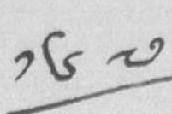༡༦༧
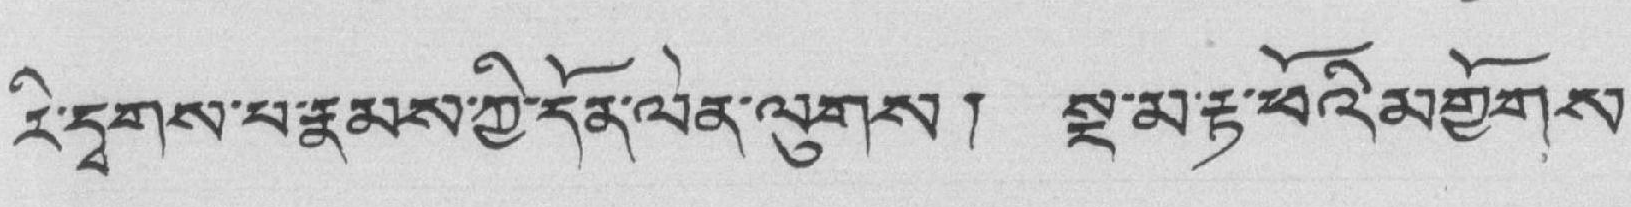རི་དྭགས་པ་རྣམས་ཀྱི་དོན་ལེན་ལུགས། སྔ་མ་རྟ་ཕོའི་མགྱོགས་
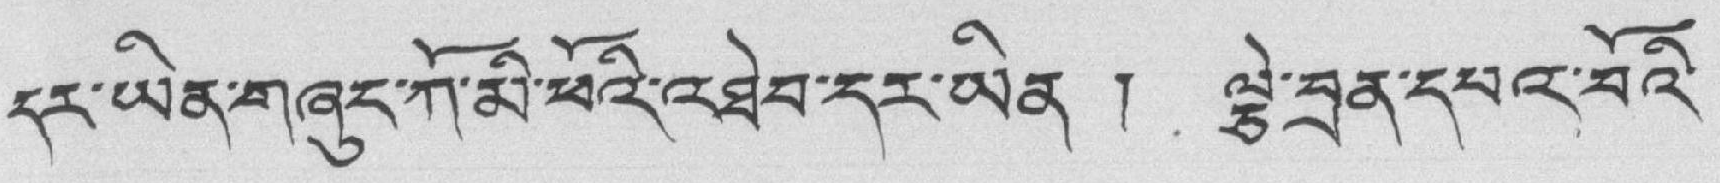དར་ཡིན་གཞུང་ཀོ་མི་ཕོའི་འཐེབ་དར་ཡིན ། ལྕེ་བྲན་དཔའ་བོའི་
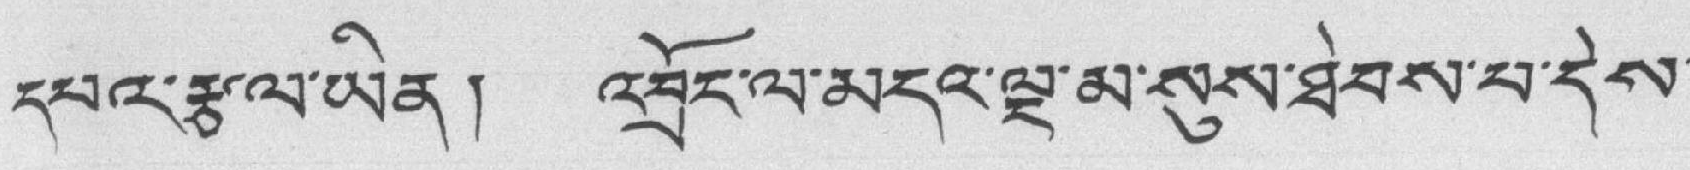དཔའ་རྩལ་ཡིན། འབྲོང་ལ་མདའ་ལྔ་མ་སུས་ཐེབས་པ་དེས་
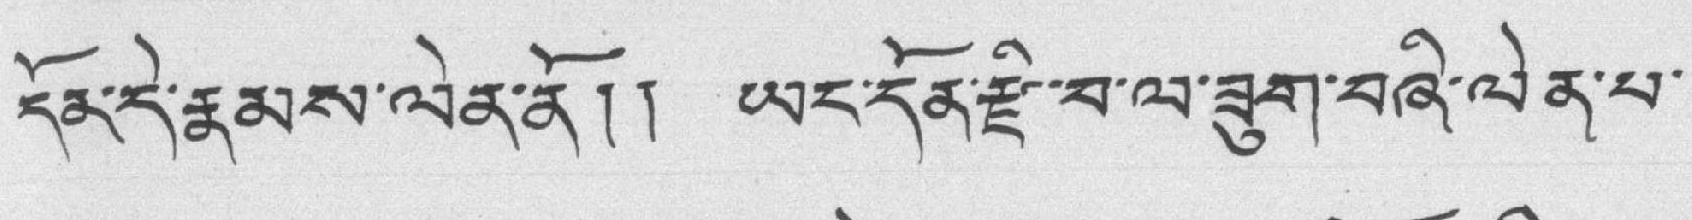དོན་དེ་རྣམས་ལེན་ནོ།། ཡང་དོན་རྫི་བ་ལ་ཟུག་བཞི་ལེན་པ་
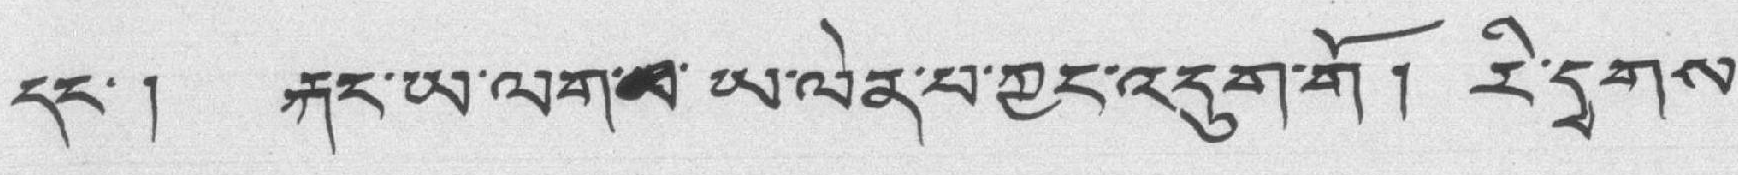དང་། རྐང་ཡ་ལག་མ་ཡ་ལེན་པ་ཀྱང་འདུག་གོ ། རི་དྭགས་
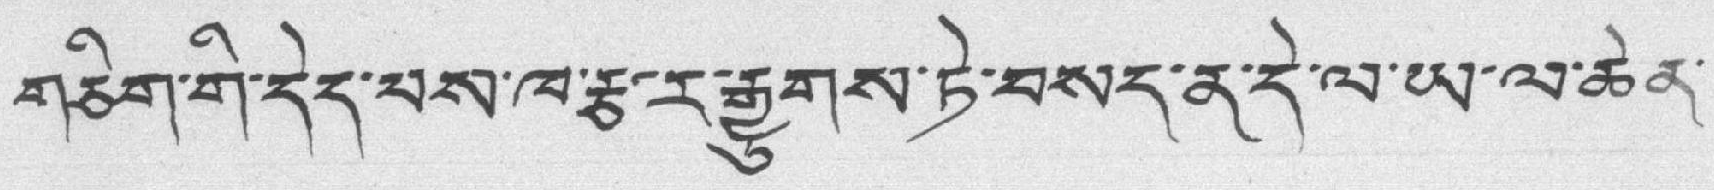གཅིག་གི་དེད་པས་ཁ་རྩར་རྒྱུགས་ཏེ་བསད་ན་དེ་ལ་ཡ་ལ་ཆེན་
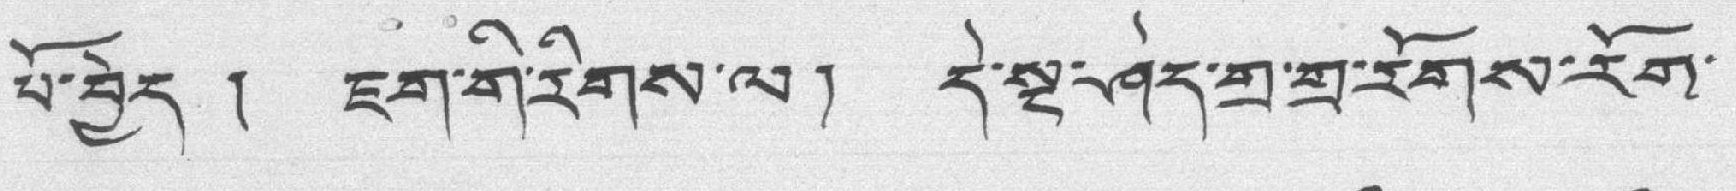པོ་བྱེད ། ཇག་གི་རིགས་ལ། དེ་སྔ་ཤེད་གྲ་གྲ་རོགས་རོག་
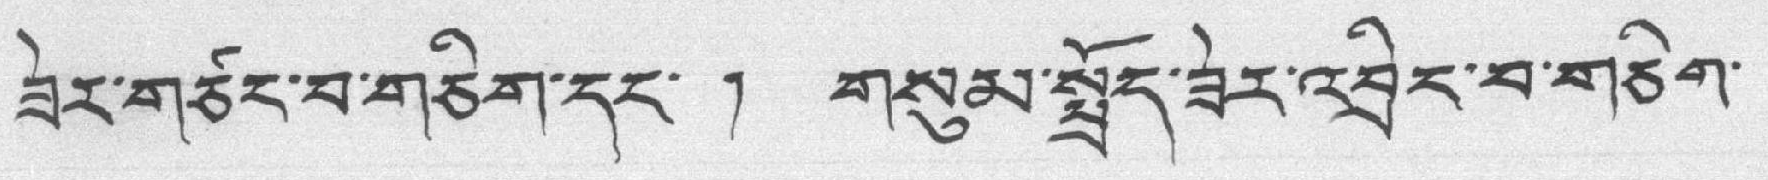ཟེར་གཙང་བ་གཅིག་དང་ ། གསུམ་སྤྲོད་ཟེར་འབྲིང་བ་གཅིག་
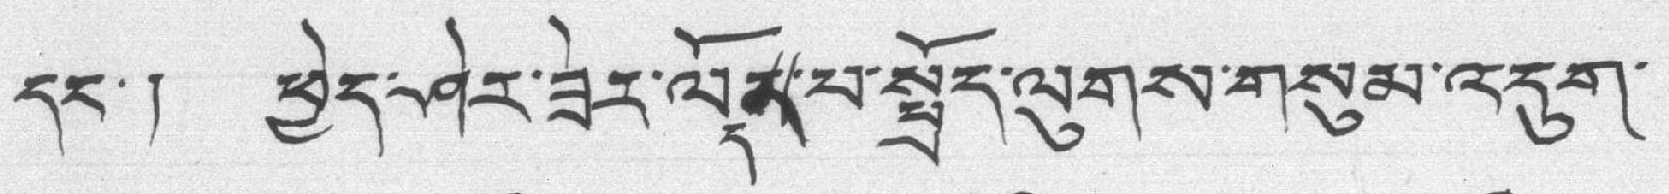དང་། ཕྱེད་ཤེར་ཟེར་ལོདན་པ་སྤྲོད་ལུགས་གསུམ་འདུག
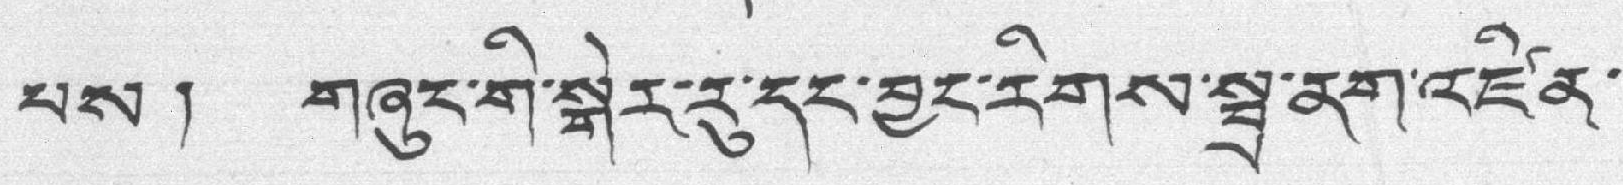པས ། གཞུང་གི་སྒེར་རུ་དང་བྱང་རིགས་སྦྲ་ནག་འཛིན་
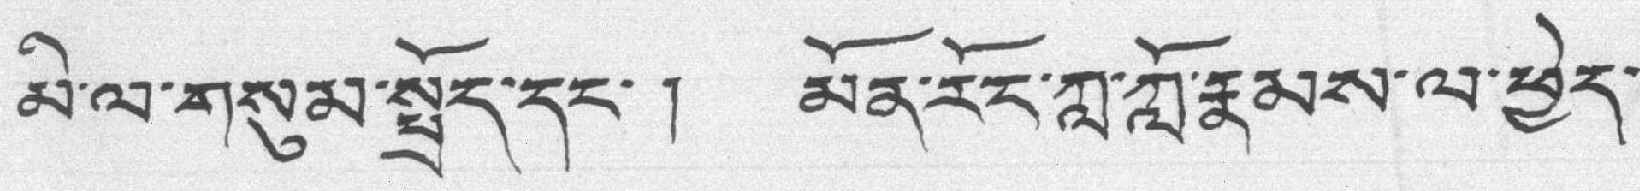མི་ལ་གསུམ་སྤྲོད་དང་། མིན་རོང་ཀླ་ཀློ་རྣམས་ལ་ཕྱེད་
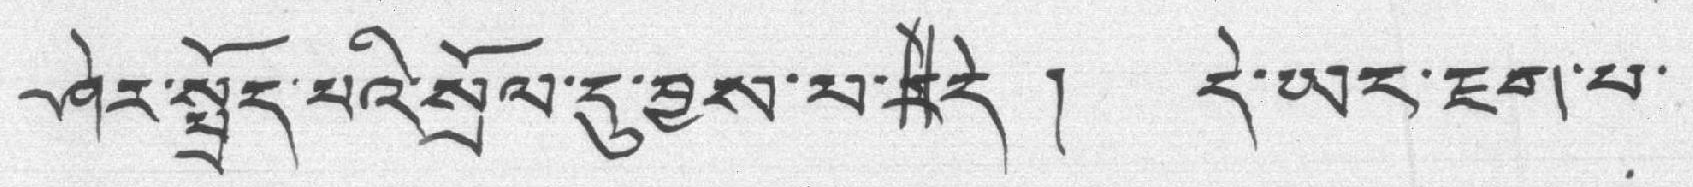ཤེར་སྤྲོད་པའི་སྲོལ་དུ་བྱས་པ་རེདེ ། དེ་ཡང་ཇག་པ་
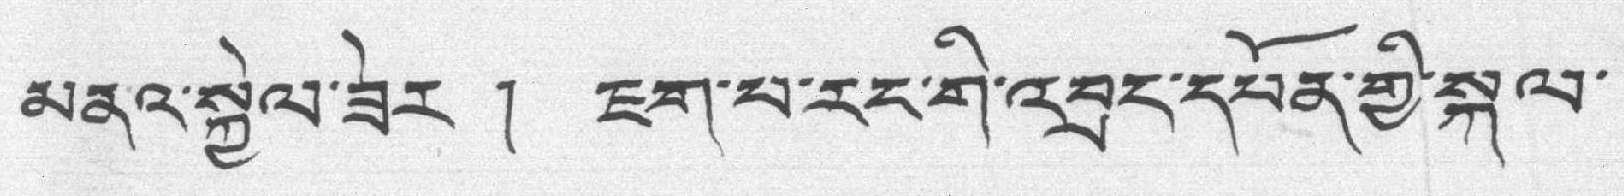མནའ་སྐྱེལ་ཟེར ། ཇག་པ་རང་གི་འབྲང་དཔོན་གྱི་སྐལ་
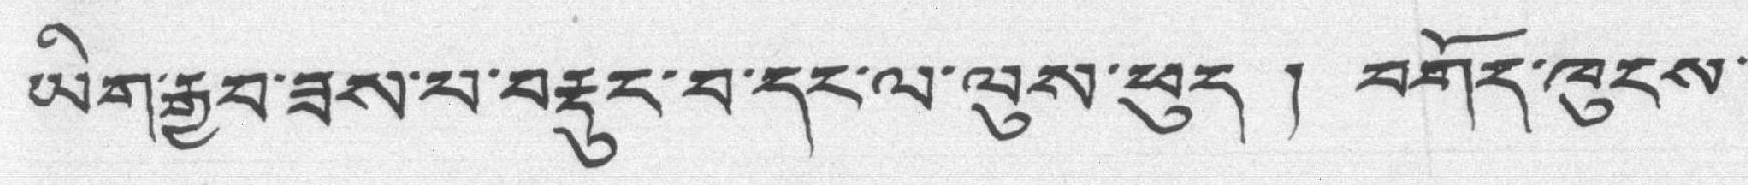ཡིག་རྒྱབ་ཟས་པ་བརྡུང་བ་དང་ལ་ལུས་ཕུད ། བགོད་ཁུངས་
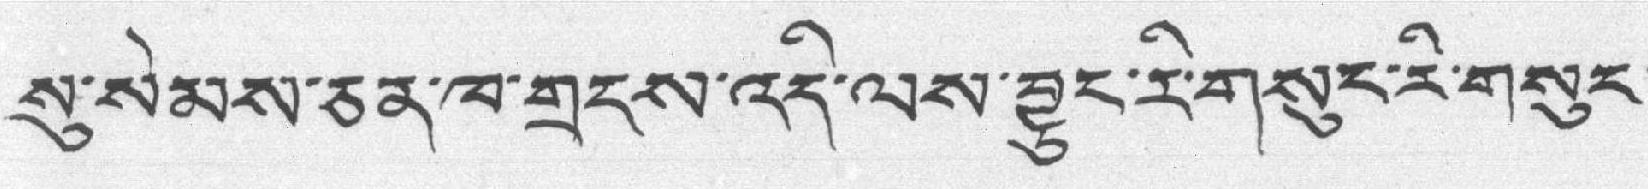སུ་སེམས་ཅན་ཁ་གྲངས་འདི་ལས་བྱུང་རི་གསུང་རི་གསུང་
